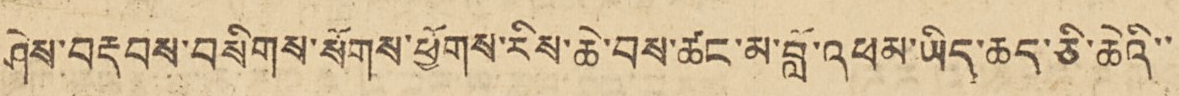ཤེས་བརྡབས་བསིགས་སོགས་ཕྱོགས་རིས་ཆེ་བས་ཚང་མ་བློ་འཕམ་ཡིད་ཆད་ཅི་ཆེའི་་
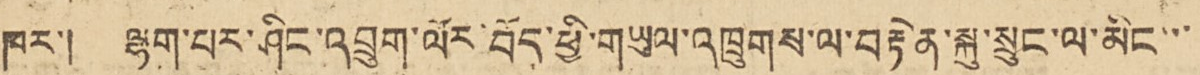ཁར་། ལྷག་པར་ཤིང་འབྲུག་ལོར་བོད་ཕྱི་གཡུལ་འཁྲུགས་ལ་བརྟེན་སྐུ་སྲུང་ལ་མིང་་་
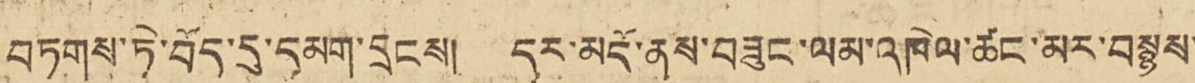བཏགས་ཏེ་བོད་དུ་དམག་དྲངས། དར་མདོ་ནས་བཟུང་ལམ་འཁེལ་ཚང་མར་བསྙས་
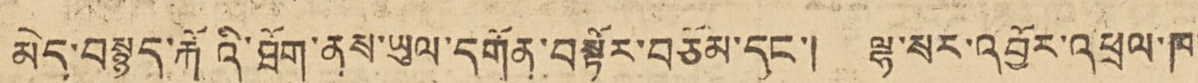མེད་བསྙད་རྐོའི་ཐོག་ནས་ཡུལ་དགོན་བསྟོར་བཅོམ་དང་། ལྷ་སར་འབྱོར་འཕྲལ་ཁ་
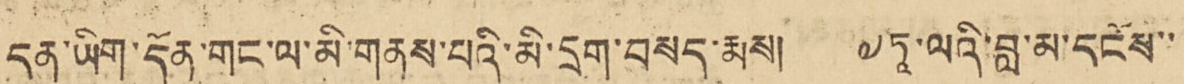དན་ཡིན་དོན་གང་ལ་མི་གནས་པའི་མི་དྲག་བསད་རྨས། ༸ཏཱ་ལའི་བླ་མ་དངོས་་
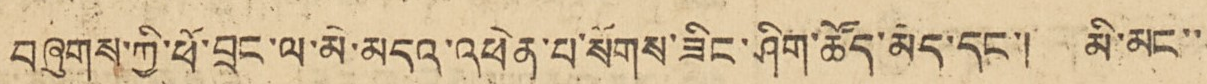བཞུགས་ཀྱི་ཕོ་བྲང་ལ་མེ་མདའ་འཕེན་པ་སོགས་ཟིང་ཤིག་ཚོད་མེད་དང་། མི་མང་་
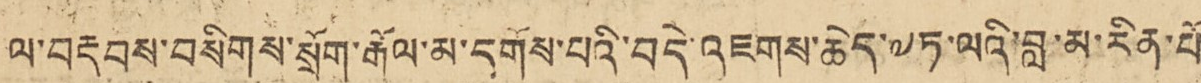ལ་བརྡབས་བསིགས་སྲོག་རྒོལ་མ་དགོས་པའི་བདེ་འཇགས་ཆེད་༸ཏ་ལའི་བླ་མ་རིན་པོ་
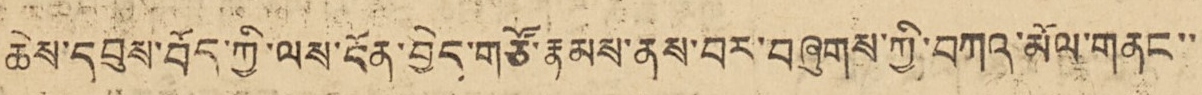ཆེས་དབུས་བོད་ཀྱི་ལས་ངོན་བྱེད་གཙོ་རྣམས་ནས་བར་བཞུགས་ཀྱི་བཀའ་མོལ་གནང་་
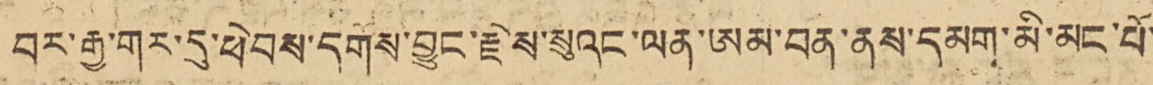བར་རྒྱ་གར་དུ་ཕེབས་དགོས་བྱུང་རྗེས་སུའང་ལན་ཨམ་བན་ནས་དམག་མི་མང་པོ་
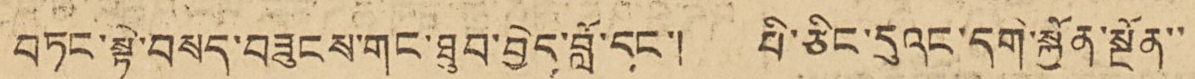བཏང་སྟེ་བསད་བཟུངས་གང་ཐུབ་བྱེད་བློ་དང་། པེ་ཅིང་དུའང་དགེ་སྐྱོན་སྔོན་་
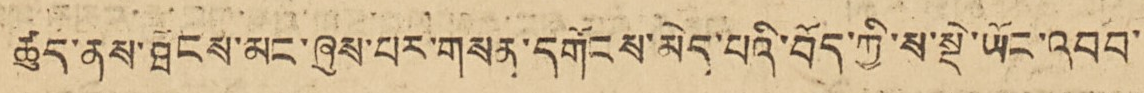ཚུད་ནས་ཐོངས་མང་ཞུས་པར་གསན་དགོངས་མེད་པའི་བོད་ཀྱི་ས་སྡེ་ཡོང་འབབ་
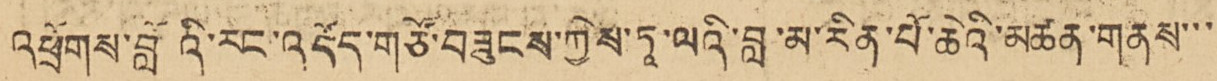འཕྲོགས་བླའི་རང་འདོད་གཙོ་བཟུངས་ཀྱིས་ཏཱ་ལའི་བླ་མ་རིན་པོ་ཆེའི་མཚན་གནས་་་
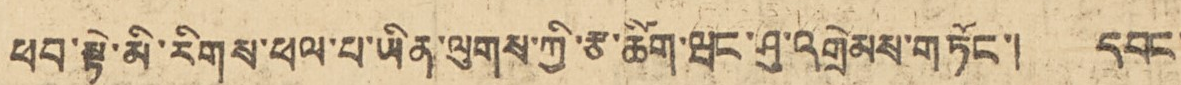ཕབ་སྟེ་མི་རིགས་ཕལ་པ་ཡིན་ལུགས་ཀྱི་རྩ་ཚིག་ཝང་ཤུ་འགྲེམས་གཏོང་། དབང་
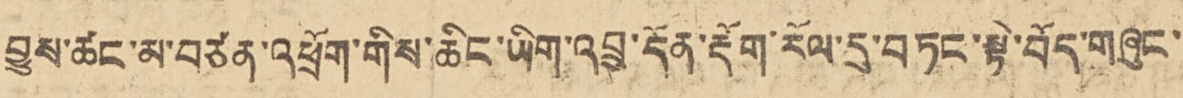བྱུས་ཚང་ལ་བཙན་འཕྲོག་གིས་ཆིང་ཡིག་འབྲུ་དོན་རྡོག་རོལ་དུ་བཏང་སྟེ་བོད་གཞུང་
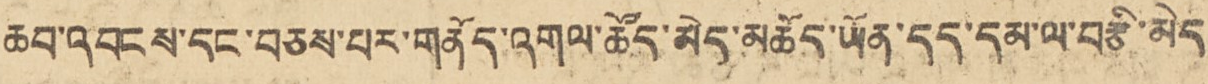ཆབ་འབངས་དང་བཅས་པར་གནོད་འགལ་ཚོད་མེད་མཆོད་ཡོན་དད་དམ་ལ་བརྩི་མེད་
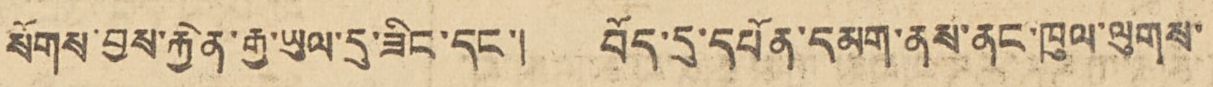སོགས་བྱས་རྐྱེན་རྒྱ་ཡུལ་དུ་ཟིང་དང་། བོད་དུ་དཔོན་དམག་ནས་ནང་ཁུལ་ལུགས་
